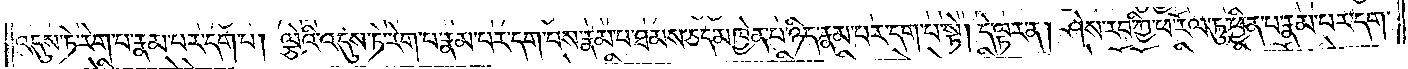འདུས་ཏེ་རེག་པ་རྣམ་པར་དག་པ། ལྕེའི་འདུས་ཏེ་རེག་པ་རྣམ་པར་དག་པས་རྣམ་པ་ཐམས་ཅད་མཁྱེན་པ་ཉིད་རྣམ་པར་དག་པ་སྟེ། དེ་ལྟར་ན། ཤེས་རབ་ཀྱི་ཕ་རོལ་ཏུ་ཕྱིན་པ་རྣམ་པར་དག་
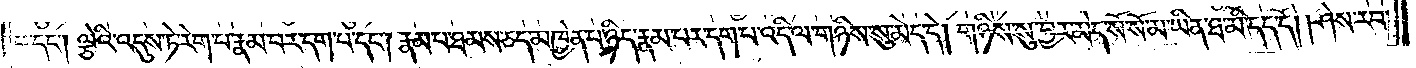པ་དང༌། ལྕེའི་འདུས་ཏེ་རེག་པ་རྣམ་པར་དག་པ་དང༌། རྣམ་པ་ཐམས་ཅད་མཁྱེན་པ་ཉིད་རྣམ་པར་དག་པ་འདི་ལ་གཉིས་སུ་མེད་དེ། གཉིས་སུ་བྱར་མེད་སོ་སོ་མ་ཡིན་ཐ་མི་དད་དོ། །ཤེས་རབ་
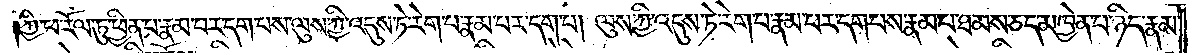ཀྱི་ཕ་རོལ་ཏུ་ཕྱིན་པ་རྣམ་པར་དག་པས་ལུས་ཀྱི་འདུས་ཏེ་རེག་པ་རྣམ་པར་དག་པ། ལུས་ཀྱི་འདུས་ཏེ་རེག་པ་རྣམ་བར་དག་པས་རྣམ་པ་ཐམས་ཅད་མཁྱེན་པ་ཉིད་རྣམ་
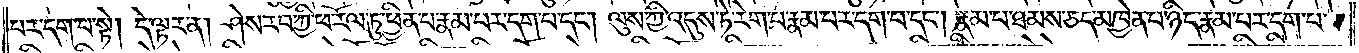པར་དག་པ་སྟེ། དེ་ལྟར་ན། ཤེས་རབ་ཀྱི་ཕ་རོལ་ཏུ་ཕྱིན་པ་རྣམ་པར་དག་པ་དང༌། ལུས་ཀྱི་འདུས་ཏེ་རེག་པ་རྣམ་པར་དག་པ་དང༌། རྣམ་པ་ཐམས་ཅད་མཁྱེན་པ་ཉིད་རྣམ་པར་དག་པ་
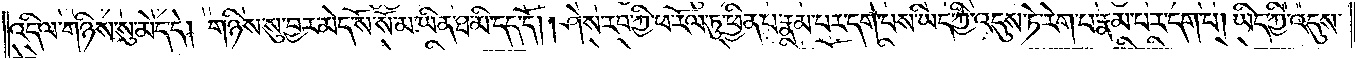འདི་ལ་གཉིས་སུ་མེད་དེ། གཉིས་སུ་བྱར་བ་མེད་སོ་སོ་མ་ཡིན་ཐ་མི་དད་དོ། །ཤེས་རབ་ཀྱི་ཕ་རོལ་ཏུ་ཕྱིན་པ་རྣམ་པར་དག་པས་ཡིད་ཀྱི་འདུས་ཏེ་རེག་པ་རྣམ་པར་དག་པ། ཡིད་ཀྱི་འདུས་
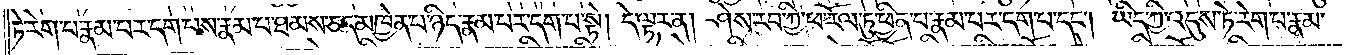ཏེ་རེག་པ་རྣམ་པར་དག་པས་རྣམ་པ་ཐམས་ཅད་མཁྱེན་པ་ཉིད་རྣམ་པར་དག་པ་སྟེ། དེ་ལྟར་ན། ཤེས་རབ་ཀྱི་ཕ་རོལ་ཏུ་ཕྱིན་པ་རྣམ་པར་དག་པ་དང༌། ཡིད་ཀྱི་འདུས་ཏེ་རེག་པ་རྣམ་
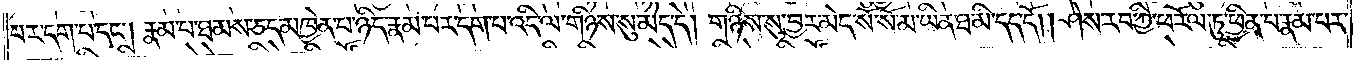པར་དག་པ་དང༌། རྣམ་པ་ཐམས་ཅད་མཁྱེན་པ་ཉིད་རྣམ་པར་དག་པ་འདི་ལ་གཉིས་སུ་མེད་དེ། གཉིས་སུ་བྱར་མེད་སོ་སོ་མ་ཡིན་ཐ་མི་དད་དོ། །ཤེས་རབ་ཀྱི་ཕ་རོལ་ཏུ་ཕྱིན་པ་རྣམ་པར་
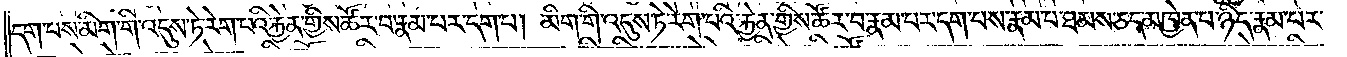དག་པས་མིག་གི་འདུས་ཏེ་རེག་པའི་རྐྱེན་གྱིས་ཚོར་བ་རྣམ་པར་དག་པ། མིག་གི་འདུས་ཏེ་རེག་པའི་རྐྱེན་གྱིས་ཚོར་བ་རྣམ་པར་དག་པས་རྣམ་པ་ཐམས་ཅད་མཁྱེན་པ་ཉིད་རྣམ་པར་
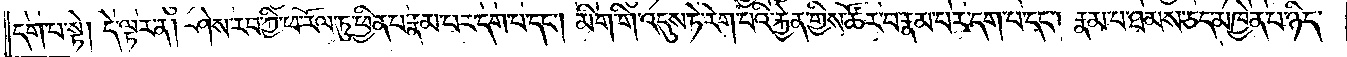དག་པ་སྟེ། དེ་ལྟར་ན། ཤེས་རབ་ཀྱི་ཕ་རོལ་ཏུ་ཕྱིན་པ་རྣམ་པར་དག་པ་དང༌། མིག་གི་འདུས་ཏེ་རེག་པའི་རྐྱེན་གྱིས་ཚོར་བ་རྣམ་པར་དག་པ་དང༌། རྣམ་པ་ཐམས་ཅད་མཁྱེན་པ་ཉིད་
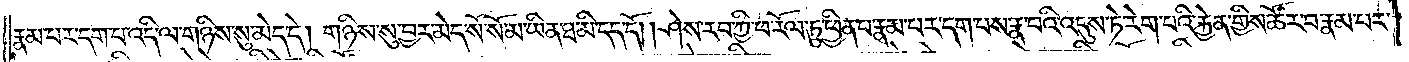རྣམ་པར་དག་པ་འདི་ལ་གཉིས་སུ་མེད་དེ། གཉིས་སུ་བྱར་མེད་སོ་སོ་མ་ཡིན་ཐ་མི་དད་དོ། །ཤེས་རབ་ཀྱི་ཕ་རོལ་ཏུ་ཕྱིན་པ་རྣམ་པར་དག་པས་རྣ་བའི་འདུས་ཏེ་རེག་པའི་རྐྱེན་གྱིས་ཚོར་བ་རྣམ་པར་
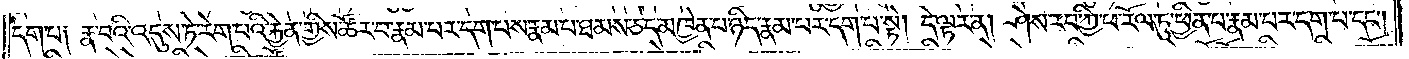དག་པ། རྣ་བའི་འདུས་ཏེ་རེག་པའི་རྐྱེན་གྱིས་ཚོར་བ་རྣམ་པར་དག་པས་རྣམ་པ་ཐམས་ཅད་མཁྱེན་པ་ཉིད་རྣམ་པར་དག་པ་སྟེ། དེ་ལྟར་ན། ཤེས་རབ་ཀྱི་ཕ་རོལ་ཏུ་ཕྱིན་པ་རྣམ་པར་དག་པ་དང༌།
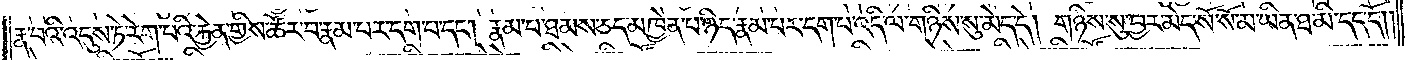རྣ་བའི་འདུས་ཏེ་རེག་པའི་རྐྱེན་གྱིས་ཚོར་བ་རྣམ་པར་དག་པ་དང༌། རྣམ་པ་ཐམས་ཅད་མཁྱེན་པ་ཉིད་རྣམ་པར་དག་པ་འདི་ལ་གཉིས་སུ་མེད་དེ། གཉིས་སུ་བྱར་མེད་སོ་སོ་མ་ཡིན་ཐ་མི་དད་དོ། །
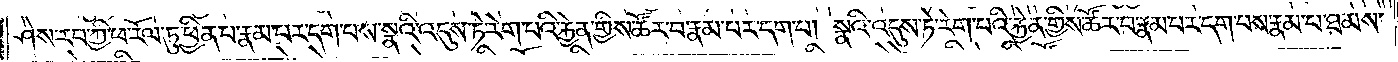ཤེས་རབ་ཀྱི་ཕ་རོལ་ཏུ་ཕྱིན་པ་རྣམ་པར་དག་པས་སྣའི་འདུས་ཏེ་རེག་པའི་རྐྱེན་གྱིས་ཚོར་བ་རྣམ་པར་དག་པ། སྣའི་འདུས་ཏེ་རེག་པའི་རྐྱེན་གྱིས་ཚོར་བ་རྣམ་པར་དག་པས་རྣམ་པ་ཐམས་
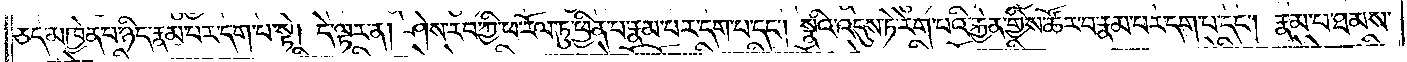ཅད་མཁྱེན་པ་ཉིད་རྣམ་པར་དག་པ་སྟེ། དེ་ལྟར་ན། ཤེས་རབ་ཀྱི་ཕ་རོལ་ཏུ་ཕྱིན་པ་རྣམ་པར་དག་པ་དང༌། སྣའི་འདུས་ཏེ་རེག་པའི་རྐྱེན་གྱིས་ཚོར་བ་རྣམ་པར་དག་པ་དང༌། རྣམ་པ་ཐམས་
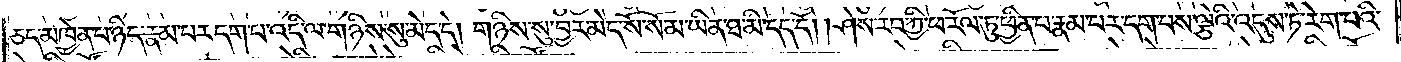ཅད་མཁྱེན་པ་ཉིད་རྣམ་པར་དག་པ་འདི་ལ་གཉིས་སུ་མེད་དེ། གཉིས་སུ་བྱར་མེད་སོ་སོ་མ་ཡིན་ཐ་མི་དད་དོ། །ཤེས་རབ་ཀྱི་ཕ་རོལ་ཏུ་ཕྱིན་པ་རྣམ་པར་དག་པས་ལྕེའི་འདུས་ཏེ་རེག་པའི་
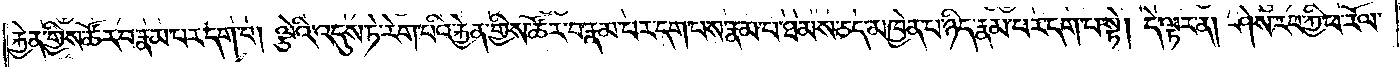རྐྱེན་གྱིས་ཚོར་བ་རྣམ་པར་དག་པ། ལྕེའི་འདུས་ཏེ་རེག་པའི་རྐྱེན་གྱིས་ཚོར་བ་རྣམ་པར་དག་པས་རྣམ་པ་ཐམས་ཅད་མཁྱེན་པ་ཉིད་རྣམ་པར་དག་པ་སྟེ། དེ་ལྟར་ན། ཤེས་རབ་ཀྱི་ཕ་རོལ་
